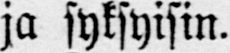ja syksyisin.
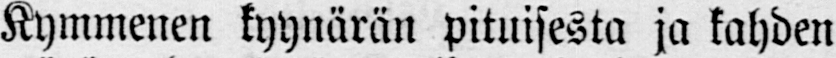Kymmenen kyynärän pituisesta ja kahden
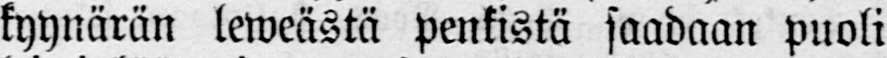kyynärän leweästä penkistä saadaan puoli
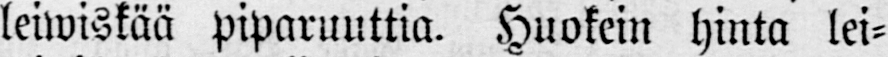leiwiskää piparuuttia. Huokein hinta lei-
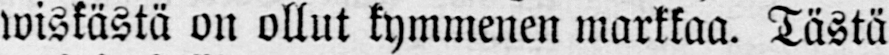wiskästä on ollut kymmenen markkaa. Tästä
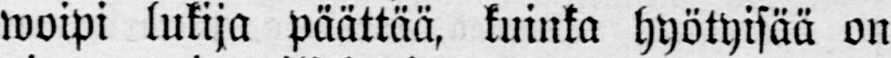woipi lukija päättää, kuinka hyötyisää on
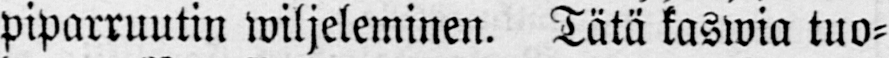piparruutin wiljeleminen. Tätä kaswia tuo-
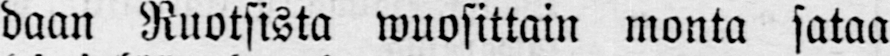daan Ruotsista wuosittain monta sataa
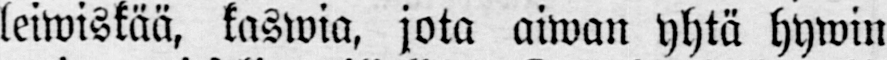leiwiskää, kaswia, jota aiwan yhtä hywin
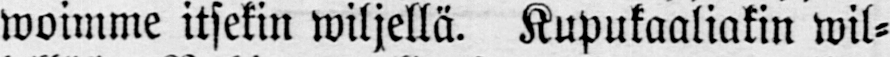woimme itsekin wiljellä. Kupukaaliakin wil-
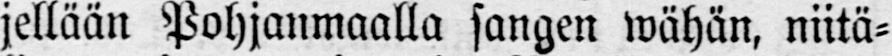jellään Pohjanmaalla sangen wähän, niitä-
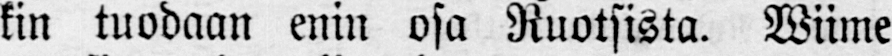kin tuodaan enin osa Ruotsista. Wiime
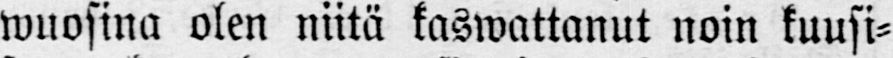wuosina olen niitä kaswattanut noin kuusi-
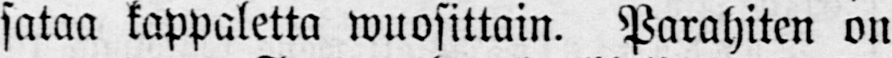sataa kappaletta wuosittain. Parahiten on
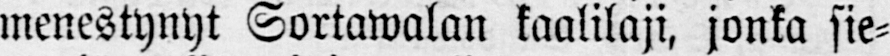menestynyt Sortawalan kaalilaji, jonka sie-
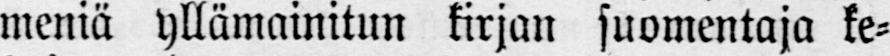meniä yllämainitun kirjan suomentaja ke-
